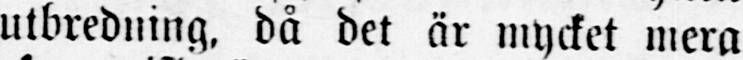utbredning, då det är mycket mera
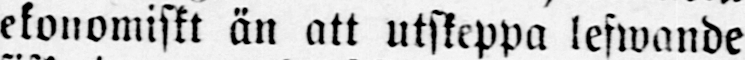ekonomiskt än att utskeppa lefwande
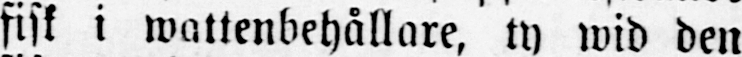fisk i wattenbehållare, ty wid den
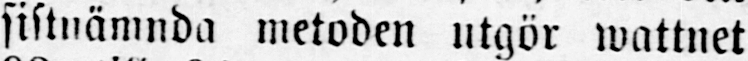sistnämnda metoden utgör wattnet
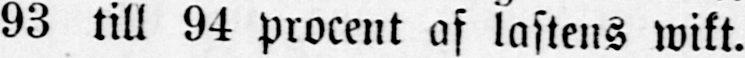93 till 94 procent af lastens wikt.
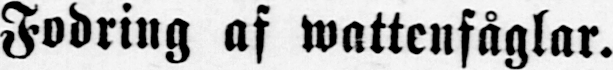Fodring af wattenfåglar.
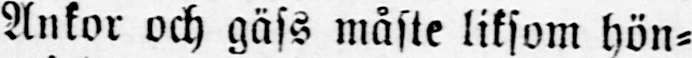Ankor och gäss måste liksom hön-
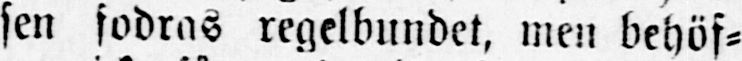sen fodras regelbundet, men behöf-
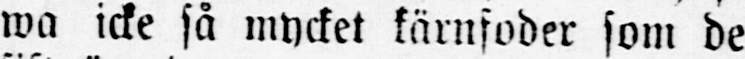wa icke så mycket kärnfoder som de
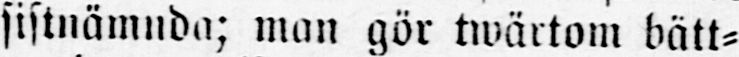sistnämnda; man gör twärtom bätt-
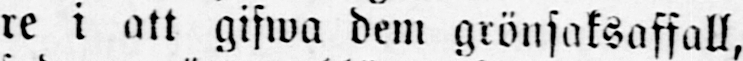re i att gifwa dem grönsaksaffall,
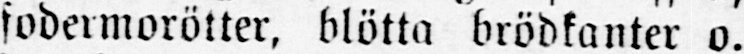fodermorötter, blötta brödkanter o.
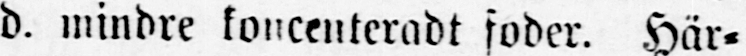d. mindre koncenteradt foder. Här-
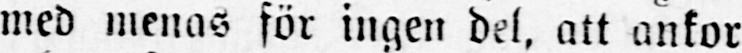med menas för ingen del, att ankor
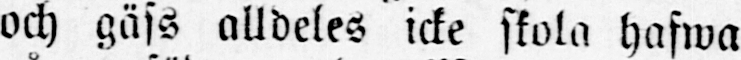och gäss alldeles icke skola hafwa
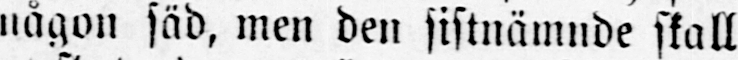någon fäd, men den sistnämnde skall
